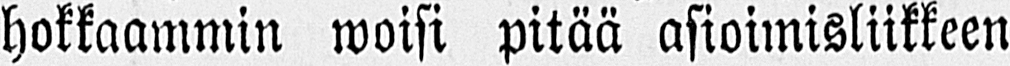hokkaammin woisi pitää asioimisliikkeen
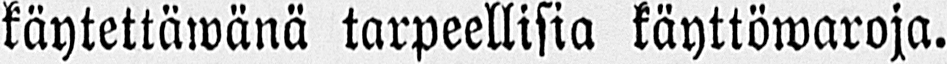käytettäwänä tarpeellisia käyttöwaroja.
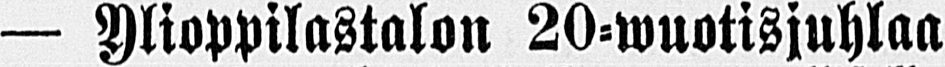— Ylioppilastalon 20-wuotisjuhlaa
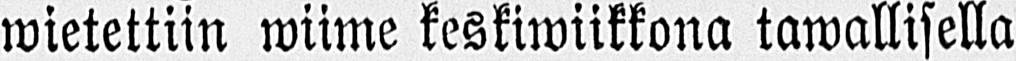wietettiin wiime keskiwiikkona tawallisella
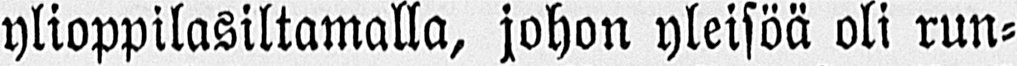ylioppilasiltamalla, johon yleisöä oli run-
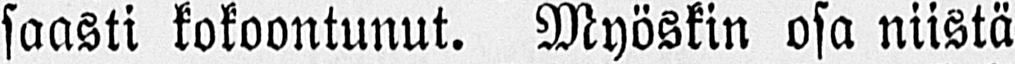saasti kokoontunut. Myöskin osa niistä
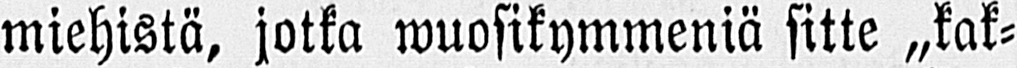miehistä, jotka wuosikymmeniä sitte „kak-
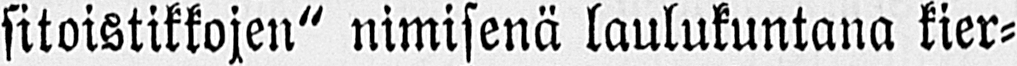sitoistikkojen" nimisenä laulukuntana kier-
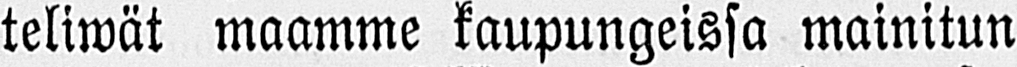teliwät maamme kaupungeissa mainitun
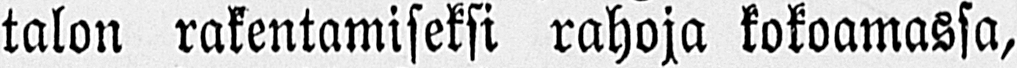talon rakentamiseksi rahoja kokoamassa,
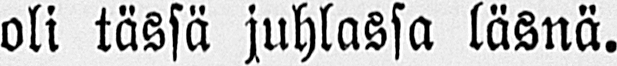oli tässä juhlassa läsnä.
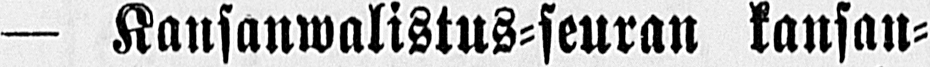— Kansanwalistus-seuran kansan-
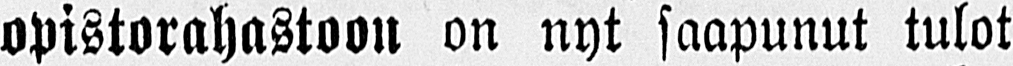opistorahastoon on nyt saapunut tulot
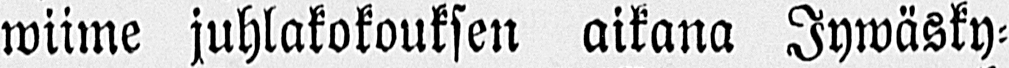wiime juhlakokouksen aikana Jywäsky-
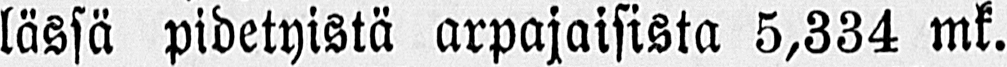lässä pidetyistä arpajaisista 5,334 mk.
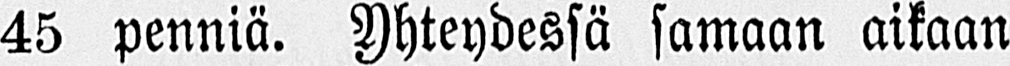45 penniä. Yhteydessä samaan aikaan
